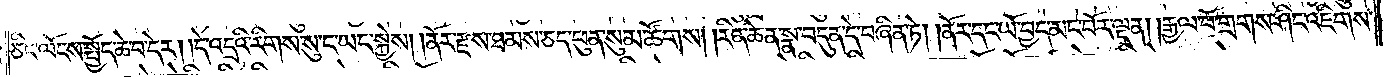ཅིང་ལོངས་སྤྱོད་ཆེ་བ་དེར། །དེ་འདྲའི་རིགས་སུ་ང་ཡང་སྐྱེས། །ནོར་རྫས་ཐམས་ཅད་ཕུན་སུམ་ཚོགས། །རིན་ཆེན་སྣ་བདུན་དེ་བཞིན་ཏེ། །ནོར་དང་ཡོ་བྱད་མང་པོར་ལྡན། །རྒྱལ་པོ་གྲགས་ཤིང་འཇིགས་
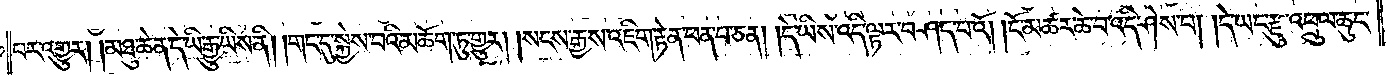པར་གྱུར། །མཐུ་ཆེན་དེ་ཡི་རྒྱུ་ཡིས་ནི། །གང་དུ་སྐྱེས་པའི་མཆོག་ཏུ་གྱུར། །སངས་རྒྱས་འཇིག་རྟེན་ཕན་པ་ཅན། །དེ་ཡིས་འདི་ལྟར་བཤད་པའོ། །ངོ་མཚར་ཆེ་བ་འདི་ཤེས་པ། །དེ་ཡང་རྫུ་འཕྲུལ་ཆུང་
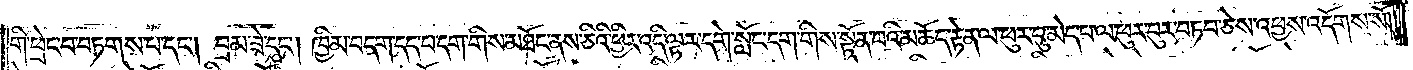གི་ཕྲེང་བ་བཏགས་པ་དང༌། བྲམ་ཟེ་དང༌། ཁྱིམ་བདག་དད་པ་དག་གིས་མཐོང་ནས་ཅིའི་ཕྱིར་འདི་ལྟར་དགེ་སློང་དག་གིས་སྟོན་པའི་མཆོད་རྟེན་ལ་ཕུར་བུ་མེད་པ་ལ་ཕུར་བུར་བཏབ་ཅེས་འཕྱས་འདོགས་སོ། །
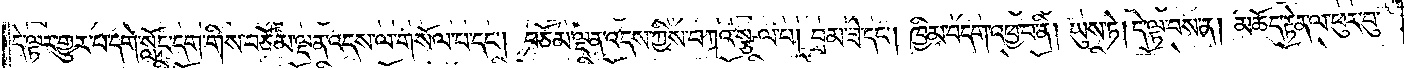དེ་ལྟར་གྱུར་པ་དགེ་སློང་དག་གིས་བཅོམ་ལྡན་འདས་ལ་གསོལ་པ་དང༌། བཅོམ་ལྡན་འདས་ཀྱིས་བཀའ་སྩལ་པ། བྲམ་ཟེ་དང༌། ཁྱིམ་བདག་འཕྱ་བ་ནི། ཡུས་ཏེ། དེ་ལྟ་བས་ན། མཆོད་རྟེན་ལ་ཕུར་བུ་
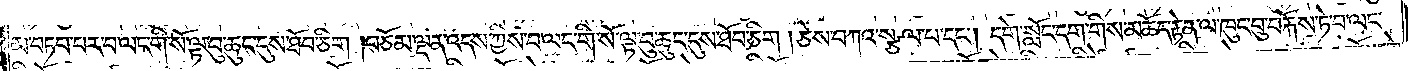མ་བཏབ་པར་བ་ལང་གི་སོ་ལྟ་བུ་ཆུང་དུས་ཐོབ་ཅིག །བཅོམ་ལྡན་འདས་ཀྱིས་བ་ལང་གི་སོ་ལྟ་བུ་ཆུང་དུས་ཐོབ་ཅིག །ཅེས་བཀའ་སྩལ་པ་དང༌། དགེ་སློང་དག་གིས་མཆོད་རྟེན་ལ་ཁུང་བུ་བརྐོས་ཏེ་བ་ལང་
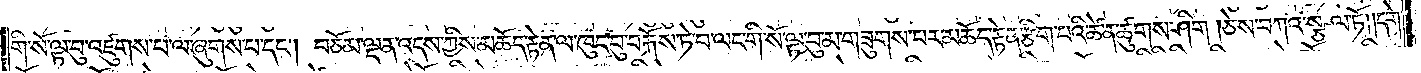གི་སོ་ལྟ་བུ་འཛུགས་པ་ལ་ཞུགས་པ་དང༌། བཅོམ་ལྡན་འདས་ཀྱིས་མཆོད་རྟེན་ལ་ཁུང་བུ་བརྐོས་ཏེ་བ་ལང་གི་སོ་ལྟ་བུ་མ་གཟུགས་པར་མཆོད་རྟེན་རྩིག་པའི་ཚེ་ན་ཚུགས་ཤིག །ཅེས་བཀའ་སྩལ་ཏོ། །དགེ་
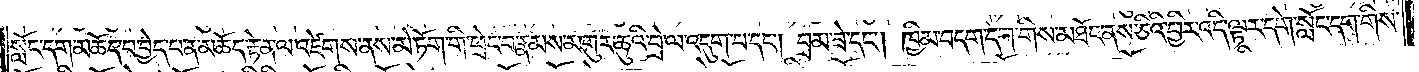སློང་དག་མཆོད་པ་བྱེད་པ་ན་མཆོད་རྟེན་ལ་འཛེགས་ནས་མེ་ཏོག་གི་ཕྲེང་བ་རྣམས་མགུར་ཆུའི་བྲེ་ལ་འདུག་པ་དང༌། བྲམ་ཟེ་དང༌། ཁྱིམ་བདག་དག་གིས་མཐོང་ནས་ཅིའི་ཕྱིར་འདི་ལྟར་དགེ་སློང་དག་གིས་
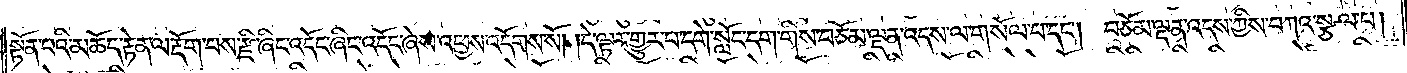སྟོན་པའི་མཆོད་རྟེན་ལ་རྡོག་པས་རྫི་ཞིང་འདོང་ཞིང་འདོང་ཞེས་འཕྱས་འདོགས་སོ། །དེ་ལྟར་གྱུར་པ་དགེ་སློང་དག་གིས་བཅོམ་ལྡན་འདས་ལ་གསོལ་པ་དང༌། བཅོམ་ལྡན་འདས་ཀྱིས་བཀའ་སྩལ་པ།
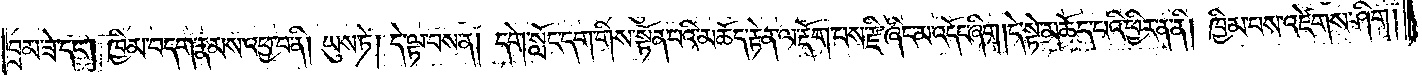བྲམ་ཟེ་དང༌། ཁྱིམ་བདག་རྣམས་འཕྱ་བ་ནི། ཡུས་ཏེ། དེ་ལྟ་བས་ན། དགེ་སློང་དག་གིས་སྟོན་པའི་མཆོད་རྟེན་ལ་རྡོག་པས་རྫི་ཞིང་མ་འདོང་ཞིག །དེ་སྟེ་མཆོད་པའི་ཕྱིར་ན་ནི། ཁྱིམ་པས་འཛེགས་ཤིག །
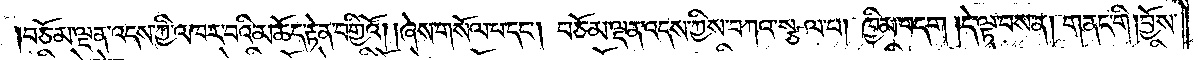བཅོམ་ལྡན་འདས་ཀྱི་འཁར་བའི་མཆོད་རྟེན་བགྱིའོ། །ཞེས་གསོལ་བ་དང༌། བཅོམ་ལྡན་འདས་ཀྱིས་བཀའ་སྩལ་པ། ཁྱིམ་བདག། དེ་ལྟ་བས་ན། གནང་གི །བྱོས་
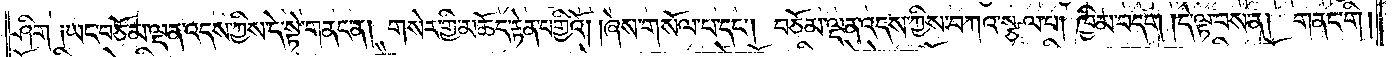ཤིག །ཡང་བཅོམ་ལྡན་འདས་ཀྱིས་དེ་སྟེ་གནང་ན། གསེར་གྱི་མཆོད་རྟེན་བགྱིའོ། །ཞེས་གསོལ་པ་དང༌། བཅོམ་ལྡན་འདས་ཀྱིས་བཀའ་སྩལ་པ། ཁྱིམ་བདག །དེ་ལྟ་བས་ན། གནང་གི །
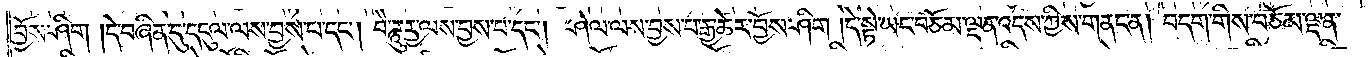བྱོས་ཤིག །དེ་བཞིན་དུ་དངུལ་ལས་བྱས་པ་དང༌། བཻ་ཌཱུཪྻ་ལས་བྱས་པ་དང༌། ཤེལ་ལས་བྱས་པ་རྒྱ་ཆེར་བྱོས་ཤིག །དེ་སྟེ་ཡང་བཅོམ་ལྡན་འདས་ཀྱིས་གནང་ན། བདག་གིས་བཅོམ་ལྡན་
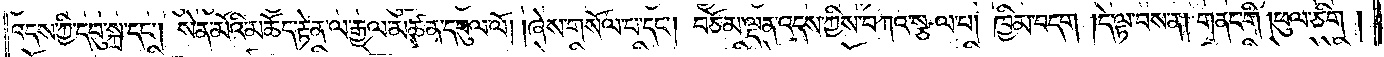འདས་ཀྱི་དབུ་སྐྲ་དང༌། སེན་མོའི་མཆོད་རྟེན་ལ་རྒྱལ་མཚན་དབུལ་ལོ། །ཞེས་གསོལ་པ་དང༌། བཅོམ་ལྡན་འདས་ཀྱིས་བཀའ་སྩལ་པ། ཁྱིམ་བདག །དེ་ལྟ་བས་ན། གནང་གི །ཕུལ་ཅིག །
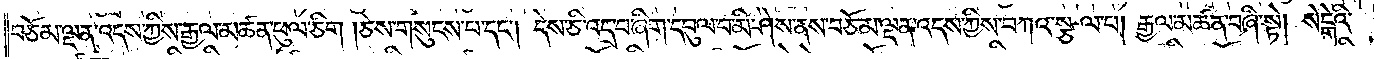བཅོམ་ལྡན་འདས་ཀྱིས་རྒྱལ་མཚན་ཕུལ་ཅིག །ཅེས་གསུངས་པ་དང༌། དེས་ཅི་འདྲ་བ་ཞིག་དབུལ་བ་མི་ཤེས་ནས་བཅོམ་ལྡན་འདས་ཀྱིས་བཀའ་སྩལ་པ། རྒྱལ་མཚན་བཞི་སྟེ། སེངྒེའི་
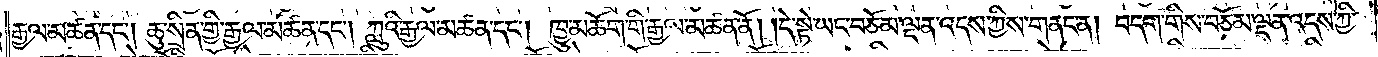རྒྱལ་མཚན་དང༌། ཆུ་སྲིན་གྱི་རྒྱལ་མཚན་དང༌། ཀླུའི་རྒྱལ་མཚན་དང༌། ཁྱུ་མཆོག་གི་རྒྱལ་མཚན་ནོ། །དེ་སྟེ་ཡང་བཅོམ་ལྡན་འདས་ཀྱིས་གནང་ན། བདག་གིས་བཅོམ་ལྡན་འདས་ཀྱི་
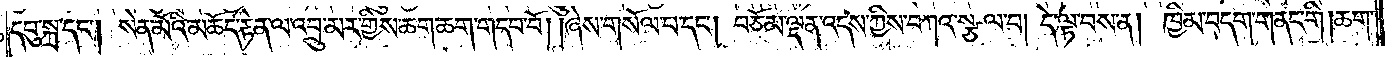དབུ་སྐྲ་དང༌། སེན་མོའི་མཆོད་རྟེན་ལ་འབྲུ་མར་གྱིས་ཆག་ཆག་གདབ་བོ། །ཞེས་གསོལ་པ་དང༌། བཅོམ་ལྡན་འདས་ཀྱིས་བཀའ་སྩལ་པ། དེ་ལྟ་བས་ན། ཁྱིམ་བདག་གནང་གི །ཆག་
